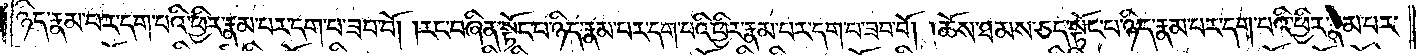ཉིད་རྣམ་པར་དག་པའི་ཕྱིར་རྣམ་པར་དག་པ་ཟབ་བོ། །རང་བཞིན་སྟོང་པ་ཉིད་རྣམ་པར་དག་པའི་ཕྱིར་རྣམ་པར་དག་པ་ཟབ་བོ། །ཆོས་ཐམས་ཅད་སྟོང་པ་ཉིད་རྣམ་པར་དག་པའི་ཕྱིར་རྣམ་པར་
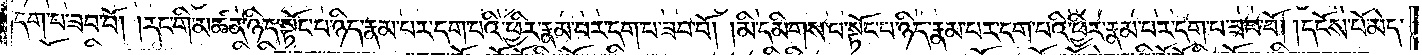དག་པ་ཟབ་བོ། །རང་གི་མཚན་ཉིད་སྟོང་པ་ཉིད་རྣམ་པར་དག་པའི་ཕྱིར་རྣམ་པར་དག་པ་ཟབ་བོ། །མི་དམིགས་པ་སྟོང་པ་ཉིད་རྣམ་པར་དག་པའི་ཕྱིར་རྣམ་པར་དག་པ་ཟབ་བོ། །དངོས་པོ་མེད་
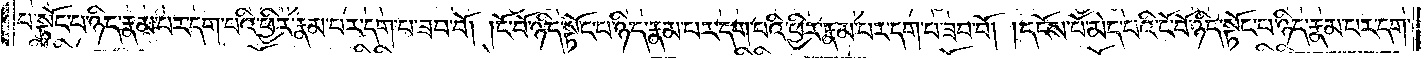པ་སྟོང་པ་ཉིད་རྣམ་པར་དག་པའི་ཕྱིར་རྣམ་པར་དག་པ་ཟབ་བོ། །ངོ་བོ་ཉིད་སྟོང་པ་ཉིད་རྣམ་པར་དག་པའི་ཕྱིར་རྣམ་པར་དག་པ་ཟབ་བོ། །དངོས་པོ་མེད་པའི་ངོ་བོ་ཉིད་སྟོང་པ་ཉིད་རྣམ་པར་དག་
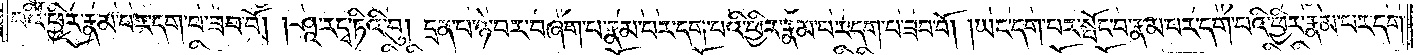པའི་ཕྱིར་རྣམ་པར་དག་པ་ཟབ་བོ། །ཤཱ་ར་དྭ་ཏིའི་བུ། དྲན་པ་ཉེ་བར་བཞག་པ་རྣམ་པར་དག་པའི་ཕྱིར་རྣམ་པར་དག་པ་ཟབ་བོ། །ཡང་དག་པར་སྤོང་བ་རྣམ་པར་དག་པའི་ཕྱིར་རྣམ་པར་དག་
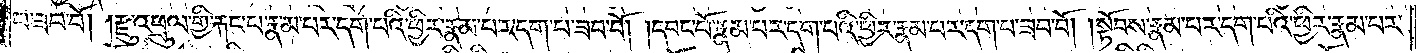པ་ཟབ་བོ། །རྫུ་འཕྲུལ་གྱི་རྐང་པ་རྣམ་པར་དག་པའི་ཕྱིར་རྣམ་པར་དག་པ་ཟབ་བོ། །དབང་པོ་རྣམ་པར་དག་པའི་ཕྱིར་རྣམ་པར་དག་པ་ཟབ་བོ། །སྟོབས་རྣམ་པར་དག་པའི་ཕྱིར་རྣམ་པར་
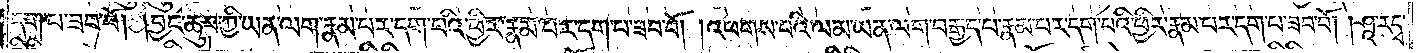དག་པ་ཟབ་བོ། །བྱང་ཆུབ་ཀྱི་ཡན་ལག་རྣམ་པར་དག་པའི་ཕྱིར་རྣམ་པར་དག་པ་ཟབ་བོ། །འཕགས་པའི་ལམ་ཡན་ལག་བརྒྱད་པ་རྣམ་པར་དག་པའི་ཕྱིར་རྣམ་པར་དག་པ་ཟབ་བོ། །ཤཱ་རདྭ་
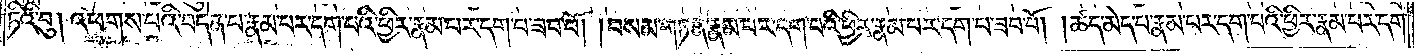ཏིའི་བུ། འཕགས་པའི་བདེན་པ་རྣམ་པར་དག་པའི་ཕྱིར་རྣམ་པར་དག་པ་ཟབ་བོ། །བསམ་གཏན་རྣམ་པར་དག་པའི་ཕྱིར་རྣམ་པར་དག་པ་ཟབ་བོ། །ཚད་མེད་པ་རྣམ་པར་དག་པའི་ཕྱིར་རྣམ་པར་དག་
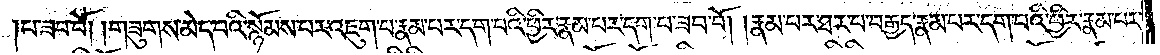པ་ཟབ་བོ། །གཟུགས་མེད་པའི་སྙོམས་པར་འཇུག་པ་རྣམ་པར་དག་པའི་ཕྱིར་རྣམ་པར་དག་པ་ཟབ་བོ། །རྣམ་པར་ཐར་པ་བརྒྱད་རྣམ་པར་དག་པའི་ཕྱིར་རྣམ་པར་
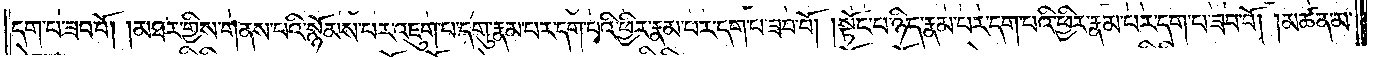དག་པ་ཟབ་བོ། །མཐར་གྱིས་གནས་པའི་སྙོམས་པར་འཇུག་པ་དགུ་རྣམ་པར་དག་པའི་ཕྱིར་རྣམ་པར་དག་པ་ཟབ་བོ། །སྟོང་པ་ཉིད་རྣམ་པར་དག་པའི་ཕྱིར་རྣམ་པར་དག་པ་ཟབ་བོ། །མཚན་མ་
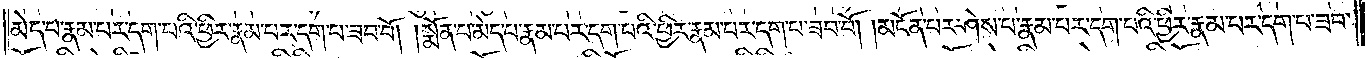མེད་པ་རྣམ་པར་དག་པའི་ཕྱིར་རྣམ་པར་དག་པ་ཟབ་བོ། །སྨོན་པ་མེད་པ་རྣམ་པར་དག་པའི་ཕྱིར་རྣམ་པར་དག་པ་ཟབ་བོ། །མངོན་པར་ཤེས་པ་རྣམ་པར་དག་པའི་ཕྱིར་རྣམ་པར་དག་པ་ཟབ་
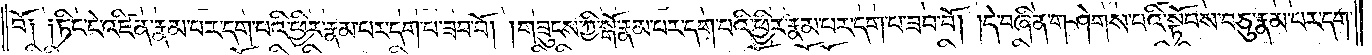བོ༑ ༑ཏིང་ངེ་འཛིན་རྣམ་པར་དག་པའི་ཕྱིར་རྣམ་པར་དག་པ་ཟབ་བོ། །གཟུངས་ཀྱི་སྒོ་རྣམ་པར་དག་པའི་ཕྱིར་རྣམ་པར་དག་པ་ཟབ་བོ། །དེ་བཞིན་གཤེགས་པའི་སྟོབས་བཅུ་རྣམ་པར་དག་
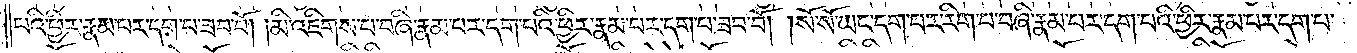པའི་ཕྱིར་རྣམ་པར་དག་པ་ཟབ་བོ། །མི་འཇིགས་པ་བཞི་རྣམ་པར་དག་པའི་ཕྱིར་རྣམ་པར་དག་པ་ཟབ་བོ། །སོ་སོ་ཡང་དག་པར་རིག་པ་བཞི་རྣམ་པར་དག་པའི་ཕྱིར་རྣམ་པར་དག་པ་
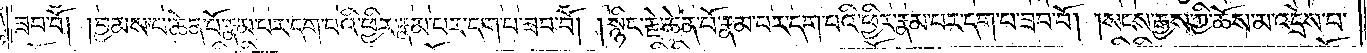ཟབ་བོ། །བྱམས་པ་ཆེན་པོ་རྣམ་པར་དག་པའི་ཕྱིར་རྣམ་པར་དག་པ་ཟབ་བོ། །སྙིང་རྗེ་ཆེན་པོ་རྣམ་པར་དག་པའི་ཕྱིར་རྣམ་པར་དག་པ་ཟབ་བོ། །སངས་རྒྱས་ཀྱི་ཆོས་མ་འདྲེས་པ་
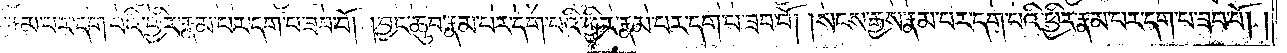རྣམ་པར་དག་པའི་ཕྱིར་རྣམ་པར་དག་པ་ཟབ་བོ། །བྱང་ཆུབ་རྣམ་པར་དག་པའི་ཕྱིར་རྣམ་པར་དག་པ་ཟབ་བོ། །སངས་རྒྱས་རྣམ་པར་དག་པའི་ཕྱིར་རྣམ་པར་དག་པ་ཟབ་པོ། །
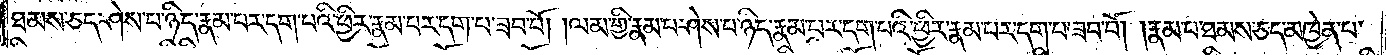ཐམས་ཅད་ཤེས་པ་ཉིད་རྣམ་པར་དག་པའི་ཕྱིར་རྣམ་པར་དག་པ་ཟབ་བོ། །ལམ་གྱི་རྣམ་པར་ཤེས་པ་ཉིད་རྣམ་པར་དག་པའི་ཕྱིར་རྣམ་པར་དག་པ་ཟབ་བོ། །རྣམ་པ་ཐམས་ཅད་མཁྱེན་པ་
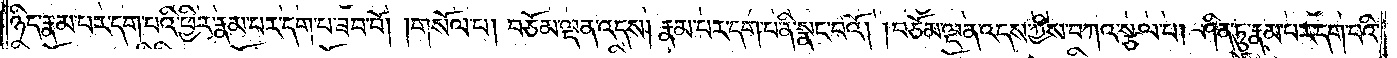ཉིད་རྣམ་པར་དག་པའི་ཕྱིར་རྣམ་པར་དག་པ་ཟབ་བོ། །གསོལ་པ། བཅོམ་ལྡན་འདས། རྣམ་པར་དག་པ་ནི་སྣང་བའོ། །བཅོམ་ལྡན་འདས་ཀྱིས་བཀའ་སྩལ་པ། ཤིན་ཏུ་རྣམ་པར་དག་པའི་
